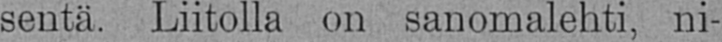sentä. Liitolla on sanomalehti, ni-
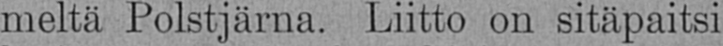meltä Polstjärna. Liitto on sitäpaitsi
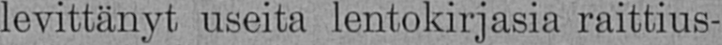levittänyt useita lentokirjasia raittius-
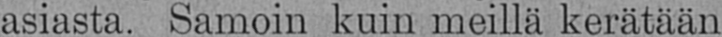asiasta. Samoin kuin meillä kerätään
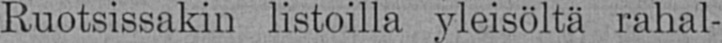Ruotsissakin listoilla yleisöltä rahal-
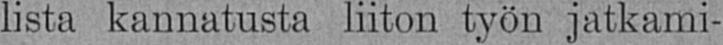lista kannatusta liiton työn jatkami-
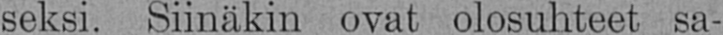seksi. Siinäkin ovat olosuhteet sa-
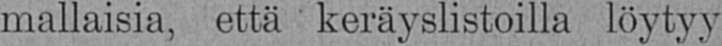mallaisia, että keräyslistoilla löytyy
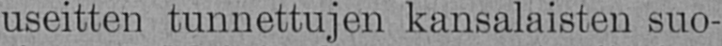useitten tunnettujen kansalaisten suo-
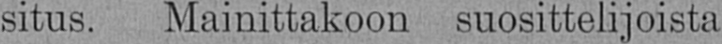situs. Mainittakoon suosittelijoista
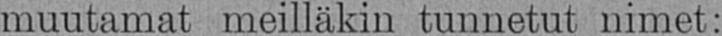muutamat meilläkin tunnetut nimet:
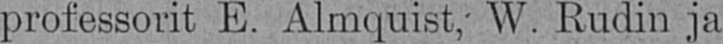professorit E. Almquist, W. Rudin ja
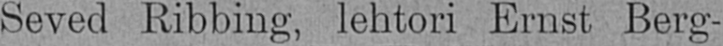Seved Ribbing, lehtori Ernst Berg-
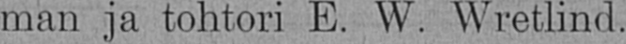man ja tohtori E. W. Wretlind.
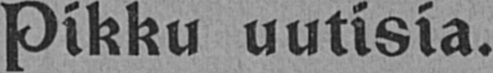Pikku uutisia.
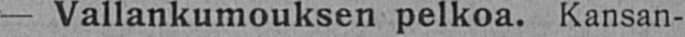— Vallankumouksen pelkoa. Kansan-
